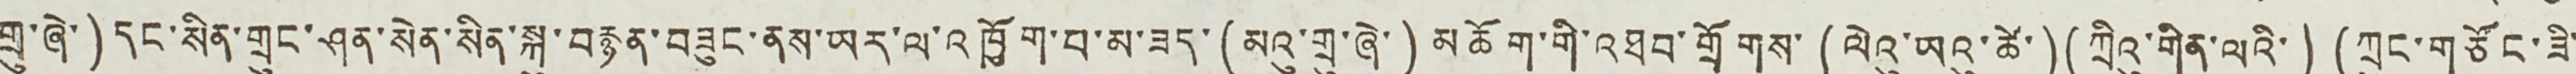གྲུ་ཞེ་)དང་སིན་གྲུང་ཤན་སེན་སིན་སྐུ་བརྙན་བཟུང་ནས་ཡར་ལ་འཁྱོག་པ་མ་ཟད་ (མའུ་གྲུ་ཞེ་) མཆོག་གི་འཐབ་གྲོགས་ (ལེའུ་ཡའུ་ཚེ་) (ཀྲིའུ་གིན་ལའི་) (ཀྲུང་གཙོང་ཟི་
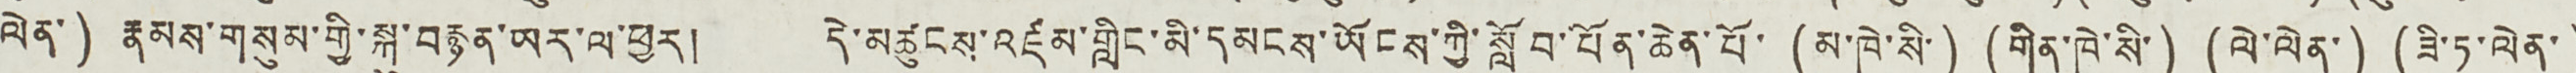ལེན་) རྣམས་གསུམ་གྱི་སྐུ་བརྙན་ཡར་ལ་ཕྱར། དེ་མཚུངས་འཛམ་གླིང་མི་དམངས་ཡོངས་ཀྱི་སློབ་པོན་ཆེན་པོ་ (མ་ཁེ་སི་) (གིན་ཁེ་སི་) (ལེ་ལེན་) (ཟི་ཏ་ལེན་)
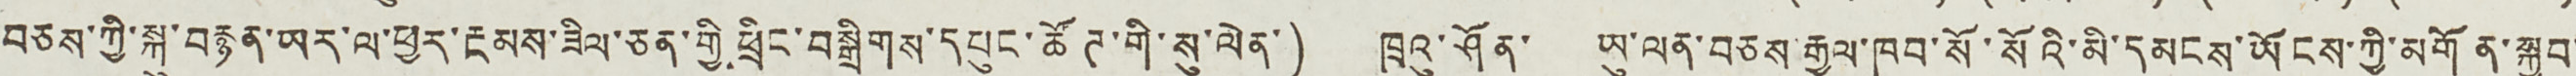བཅས་ཀྱི་སྐུ་བརྙན་ཡར་ལ་ཕྱར་རྔམས་ཟིལ་ཅན་གྱི་ཕྲིང་བསྒྲིགས་དཔུང་ཚོཊ་གི་སུ་ལེན་) ཁྲའུ་ཤོན་ ཡུ་ལན་བཅས རྒྱལ་ཁབ་སོ་སོའི་མི་དམངས་ཡོངས་ཀྱི་མགོན་སྐྱབ་
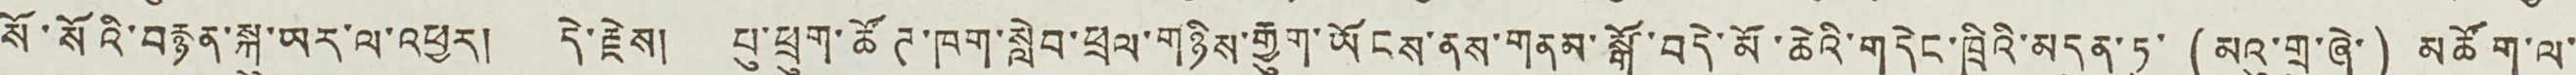སོ་སོའི་བརྙན་སྐུ་ཡར་ལ་འཕྱར། དེ་རྗེས། པུ་ཕྲུག་ཚོཊ་ཁག་སླེབ་ཕྲལ་གཉིས་རྒྱུག་ཡོངས་ནས་གནམ་སྒོ་བདེ་མོ་ཆེའི་གདེང་ཁྲིའི་མདུན་ཏུ་ (མའུ་གྲུ་ཞེ་) མཆོག་ལ་
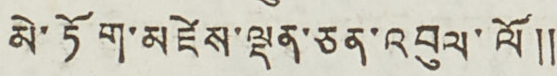མེ་ཏོག་མཛེས་ལྡན་ཅན་འབུལ་ལོ༎
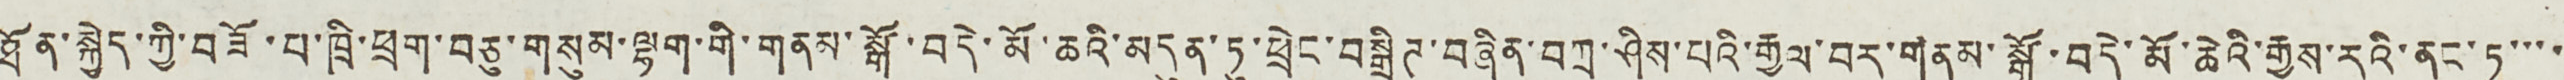ཐོན་སྐྱེད་ཀྱི་བཟོ་པ་ཁྲི་ཕྲག་བཅུ་གསུམ་ལྷག་གི་གནམ་སྒོ་བདེ་མོ་ཆའི་མདུན་ཏུ་ཕྲེང་བསྒྲིཊ་བཞིན་བཀྲ་ཤིས་པའི་རྒྱལ་བར་གནམ་སྒོ་བདེ་མོ་ཆེའི་རྒྱས་རའི་ནང་ཏུ་་་་
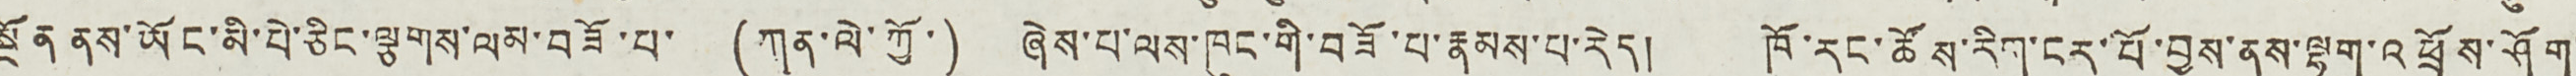སྔོན ནས་ཡོང་མི་པེ་ཅིང་ལྕགས་ལམ་བཟོ་པ་ (ཀན་ལེ་ཀྱོ་) ཞེས་པ་ལས་ཁུང་གི་བཟོ་པ་རྣམས་པ་རེད། ཁོ་རང་ཚོས་རིག་ངར་པོ་བྱས་ནས་ལྷག་འཕྲོས་ཤོག་
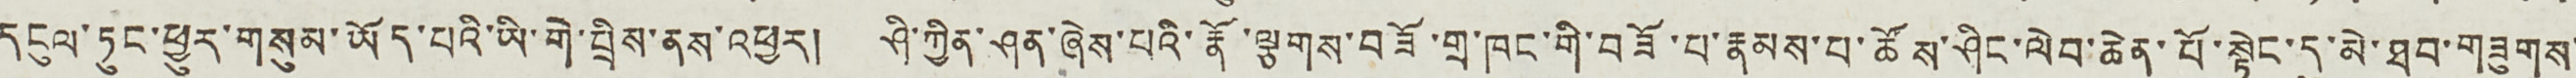དངུལ་ཏུང་ཕྱུར་གསུམ་ཡོད་པའི་ཡི་གེ་བྲེས་ནས་འཕྱར། ཤི་ཀྱིན་ཤན་ཞེས་པའི་རྣོ་ལྕགས་བཟོ་གྲ་ཁང་གི་བཟོ་པ་རྣམས་པ་ཚོས་ཤིང་ལེབ་ཆེན་པོ་སྟེང་དུ་མེ་ཐབ་གཟུགས་
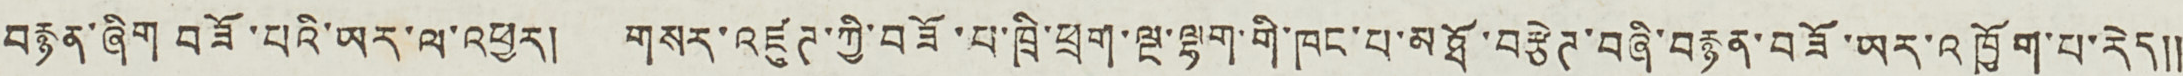བརྙན་ཞིག བཟོ་པའི་ཡར་ལ་འཕྱར། གསར་འཛུཊ་ཀྱི་བཟོ་པ་ཁྲི་ཕྲག་ལྔ་ལྷག་གི་ཁང་པ་མཐོ་བརྩེཊ་བཞི་བརྙན་བཟོ་ཡར་འཁྱོག་པ་རེད༎
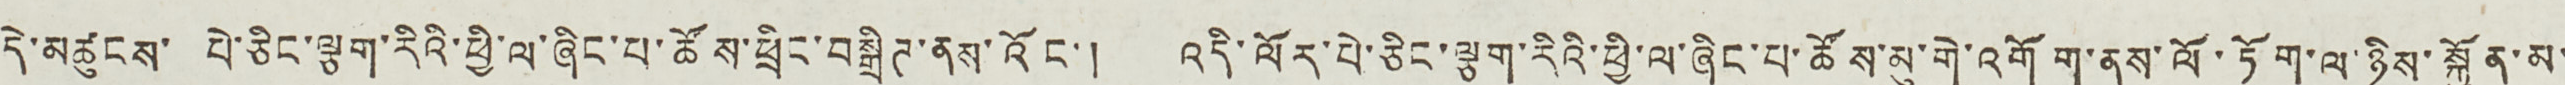དེ་མཚུངས་ པེ་ཅིང་ལྕག་རིའི་ཕྱི་ལ་ཞིང་པ་ཚོས་ཕྲིང་བསྒྲིཊ་ནས་འོང་། འདི་ལོར་པེ་ཅིང་ལྕག་རིའི་ཕྱི་ལ་ཞིང་པ་ཚོས་མུ་གེ་འགོག་ནས་ལོ་ཏོག་ལ་ཉིས་སྐྱོན་མ་
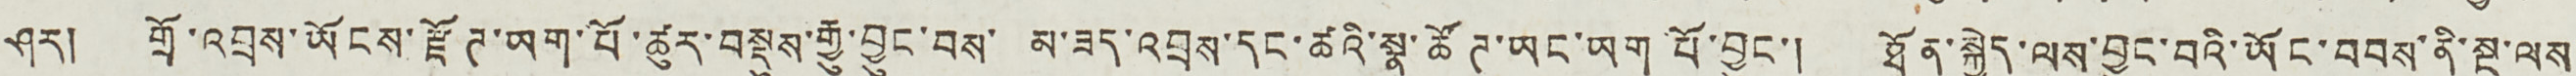ཤར། གྲོ་འབྲས་ཡོངས་རྫོཊ་ཡག་པོ་ཚུར་བསྡུས་རྒྱུ་བྱུང་བས་ མ་ཟད་འབྲས་དང་ཚའི་སྣ་ཚོཊ་ཡང་ཡག པོ་བྱུང་། ཐོན་སྐྱེད་ལས་བྱུང་བའི་ཡོང་བབས་ནི་སྔ་ལས་
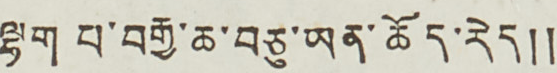ལྷག པ་བརྒྱ་ཆ་བཅུ་ཡན་ཆོད་རེད༎
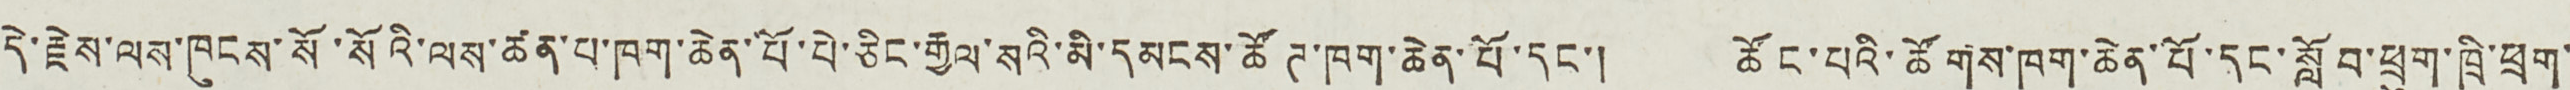དེ་རྗེས་ལས་ཁུངས་སོ་སོའི་ལས་ཚན་པ་ཁག་ཆེན་པོ་པེ་ཅིང་རྒྱལ་སའི་མི་དམངས་ཚོཊ་ཁག་ཆེན་པོ་དང་། ཚོང་པའི་ཚོགས་ཁག་ཆེན་པོ་དང་སློབ་ཕྲུག་ཁྲི་ཕྲག་
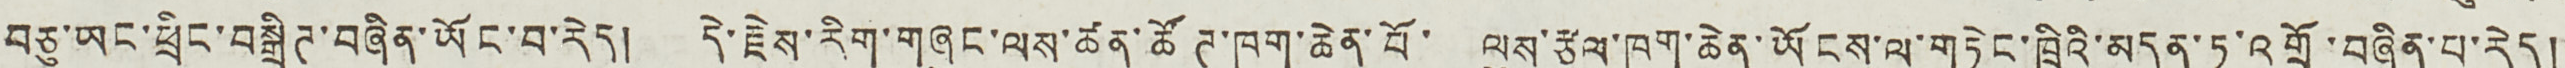བཅུ་ཡང་ཕྲིང་བསྒྲིཊ་བཞིན་ཡོང་བ་རེད། དེ་རྗེས་རིག་གཞུང་ལས་ཚན་ཚོཊ་ཁག་ཆེན་པོ་ ལུས་རྩལ་ཁག་ཆེན་ཡོངས་ལ་གཏེང་ཁྲིའི་མདུན་ཏུ་འགྲོ་བཞིན་པ་རེད།
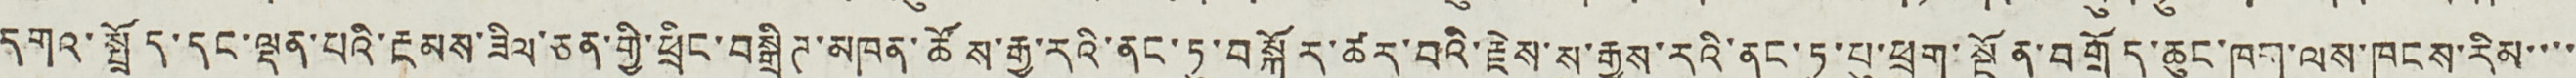དགའ་སྤྲོད་དང་ལྡན་པའི་རྔམས་ཟིལ་ཅན་གྱི་ཕྲིང་བསྒྲིཊ་མཁན་ཚོས་རྒྱ་རའི་ནང་ཏུ་བསྐོར་ཚར་བའི་རྗེས་སུ་རྒྱས་རའི་ནང་ཏུ་པུ་ཕྲུག་སྔོན་བགྲོད་ཆུང་ཁག་ལས་ཁུངས་རིམ་་་་
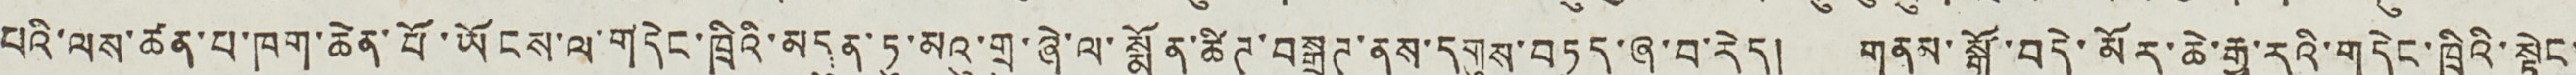པའི་ལས་ཚན་པ་ཁག་ཆེན་པོ་ཡོངས་ལ་གདེང་ཁྲིའི་མདུན་ཏུ་མའུ་གྲུ་ཞེ་ལ་སྨོན་ཚིཊ་བསྒྲཊ་ནས་དགུས་བཏུད་ཞུ་བ་རེད། གནམ་སྒོ་བདེ་མོར་ཆེ་རྒྱ་རའི་གདེང་ཁྲིའི་སྟེང་
